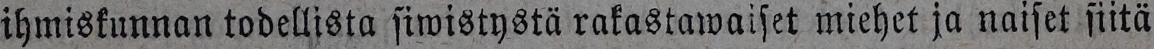ihmiskunnan todellista siwistystä rakastawaiset miehet ja naiset siitä
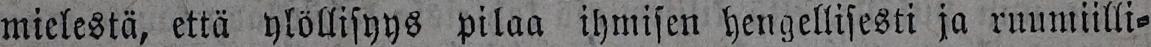mielestä, että ylöllisyys pilaa ihmisen hengellisesti ja ruumiilli-
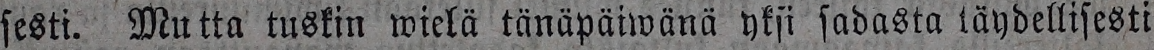sesti. Mutta tuskin wielä tänäpäiwänä yksi sadasta täydellisesti
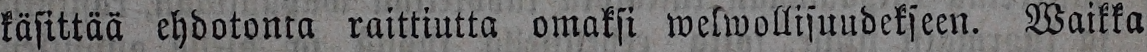käsittää ehdotonta raittiutta omaksi welwollisuudekseen. Waikka
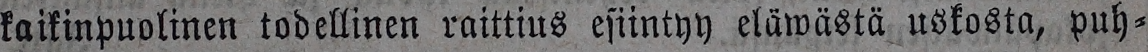kaikinpuolinen todellinen raittius esiintyy eläwästä uskosta, puh-
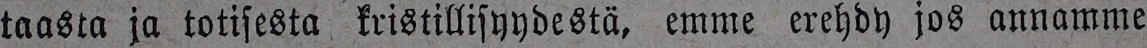taasta ja totisesta kristillisyydestä, emme erehdy jos annamme
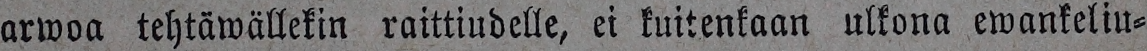arwoa tehtäwällekin raittiudelle, ei kuitenkaan ulkona ewankeliu-
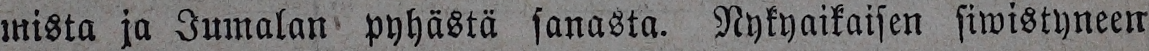mista ja Jumalan pyhästä sanasta. Nykyaikaisen siwistyneen
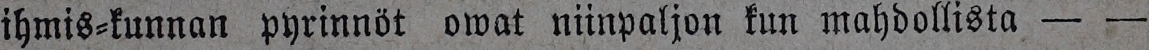ihmis-kunnan pyrinnöt owat niinpaljon kun mahdollista —
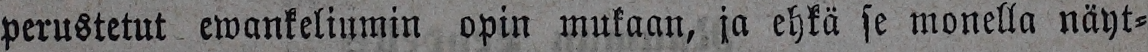perustetut ewankeliumin opin mukaan, ja ehkä se monella näyt-
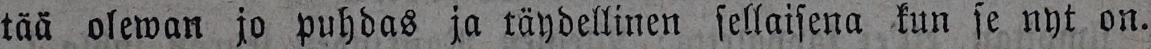tää olewan jo puhdas ja täydellinen sellaisena kun se nyt on.
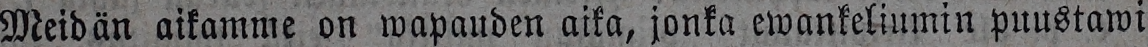Meidän aikamme on wapauden aika, jonka ewankeliumin puustawi
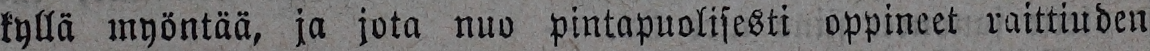kyllä myöntää, ja jota nuo pintapuolisesti oppineet raittiuden
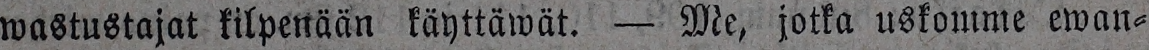wastustajat kilpenään käyttäwät. — Me, jotka uskomme ewan-
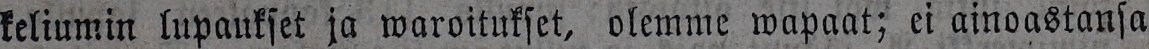keliumin lupaukset ja waroitukset, olemme wapaat; ei ainoastansa
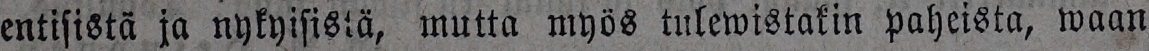entisistä ja nykyisistä, mutta myös tulewistakin paheista, waan
